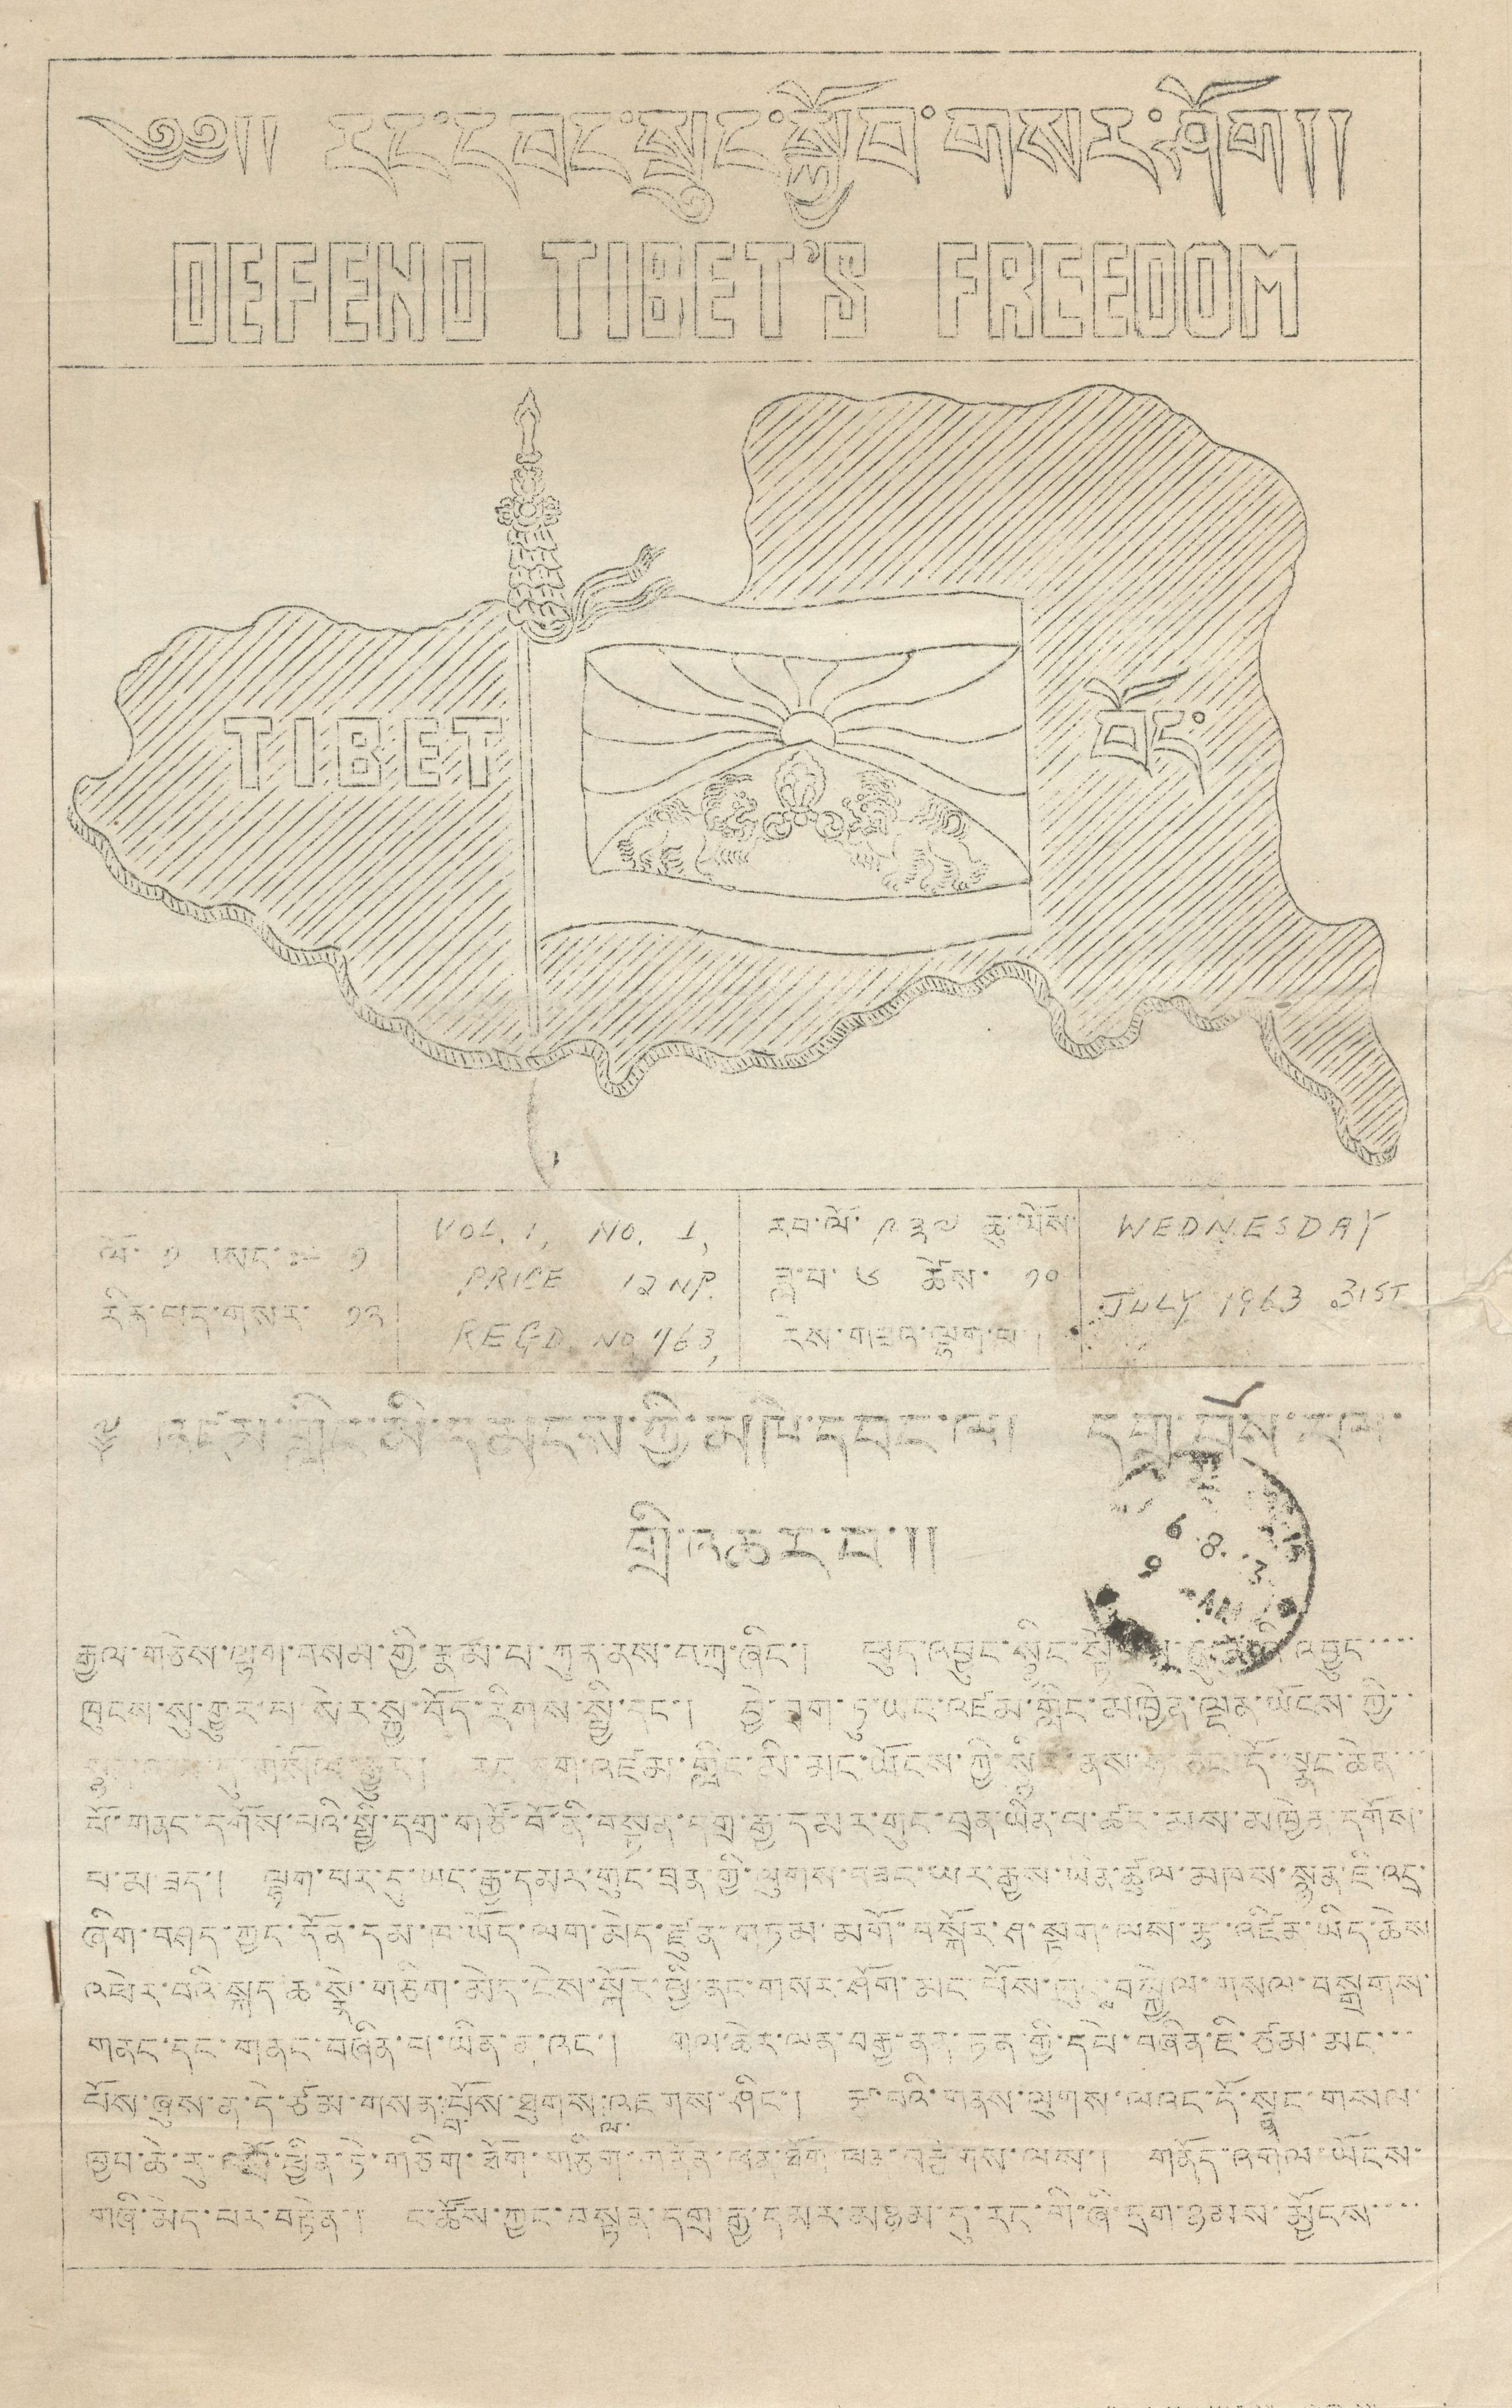༄༅།། རང་དབང་སྲུང་སྐྱོབ་གསར་ཤོག༎
DEFEND TIBET'S FREEDOM
བོད་
TIBET
ལོ་ ༡ ཨང་ :— ༡
རིར་པད་གསར་ ༡༢
Vol, 1, No, 1,
PRICE 12 NP.
REGD, NO, 763,
རབ་ལོ་ ༩༣༧ ཆུ་ཡོས་
ཟླ་བ་ ༦ ཚེས་ ༡༠
རེས་གཟའ་ལྷག་པ །
WEDNESDAY
JULY 1963, 31ST
༈ འཛམ་གླིང་མི་དམངས་ཀྱི་མཁེ་དབང་ལ། དགྲ་བོས་རལ་
གྲི་འཆར་པ་༎
རྒྱལ་གཅེས་ལྷག་བསམ་གྱི་རྣམ་པ་ཀུན་ནས་བཀྲ་ཞིང་། ཕུད་འབྱུང་སྙིང་སྟོབས་དུ་མའི་འབྱུང་་་་
ཁུངས་སུ་གྱུར་པ་སེར་སྐྱ་བོད་རིགས་སྤྱི་དང་། བྱེ་བྲག་ཏུ་ཡང་འཛམ་གླིང་མཁྱེན་ལྡན་ཡོངས་ཀྱི་་
སྙན་ལམ་དུ་གསོལ་རྒྱུར་། རང་ཅག་འཛམ་གླིང་མི་མང་ཡོངས་ཀྱི་སྙིང་ནས་ཧ་ཅང་དོ་སྣང་ཆེན་་་
པོ་གནང་དགོས་པའི་སྤྱི་དགྲ་གཙོ་བོ་ནི་བསྟན་དགྲ་རྒྱ་དམར་གུང་བྲན་ཡིན་པ་ཚང་མས་མཁྱེན་དགོས་
པ་མ་ཟད་། ལྷག་པར་དུ་ཡང་རྒྱུ་དམར་གུང་བྲན་གྱི་ལུགས་བཟང་ཡར་རྒྱས་ཡིན་ཚུལ་མཁས་སྙན་ཇི་འདྲ་
ཞིག་བཤད་ཀྱང་དོན་དམ་ཁ་ཡོད་ལག་མེད་རྫུན་གཏམ་མགོ་བསྐོར་ཤ་སྟག་ལས་རྩ་འཛིན་ཡིད་ཆེས
འཕེལ་བའི་སྐད་ཆ་སྣེ་གཅིག་མེད་ངེས་སྐོར་ཕྱི་ནང་གསར་ཤོག་མང་པོས་ཁུང
ས་
བསྐྱེལ་གསལ་བསྒྲགས་
གནང་དང་གནང་བཞིན་པ་ཡིན་ན་འང་། གལ་ཆེར་ལན་བརྒྱ་ནན་ཏན་གྱི་དཔེ་བཞིན་ཇི་ཙམ་མང་་་
པོས་ཞུས་ན་དེ་ཙམ་གསན་
པ་
པོས་ཐུགས་
ལ་
འཇགས་ཤིང་། རྩ་བའི་གནས་ལུགས་ལའང་གོ་སྣང་གསལ་
ཁྱབ་ཆེ་རུ་འགྲོ་ཕྱིན་ཏེ་གཅིག་ཐོག་གཅིག་གནོན་ཕན་ཐོག་ལན་བརྩེགས་ལས་། གནོད་འགལ་ཡོངས་
གཞི་མེད་པར་བརྟེན་། ང་ཚོས་ཀྱང་བསྟན་དགྲ་རྒྱ་དམར་མཉམ་དུ་རང་གི་ཞི་དྲག་ཉམས་མྱོངས་་་་
